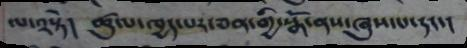ལ༢སྟེ། ཚུལ་ཁྱད་པར་ཅན་གྱི་སྒོ་ནས་ཞུས་པ་དང་།
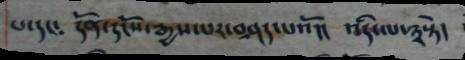པ་དང༴ དོན་དངོས་རྒྱས་པར་བཤད་པའོ།། འདི་ལ་༣སྟེ།
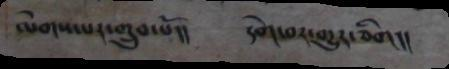ལེགས་པར་གྲུབ་པོ།། དགེ་བར་གྱུར་ཅིག།།
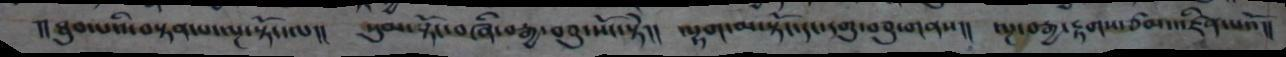།།ཐུབ་པའི་བསྟན་པ་ལྔ་སྟོང་ལ།། སུམ་སྟོང་བཞི་བརྒྱ་བཅུ་སོང་སྟེ།། ལྷག་མ་སྟོང་དང་དགུ་བཅུ་གནས།། ལྔ་བརྒྱ་རྟགས་ཙམ་འཛིན་པའོ།།
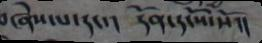བཞེས་པ་དང་། དོན་དངོས་སོ།།
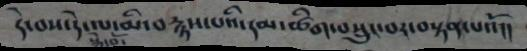དེ་བས་དེ་ལ་མི་བརྙས་པའི་དམ་ཚིག་བསྲུང་བར་བསྟན་པའོ།།
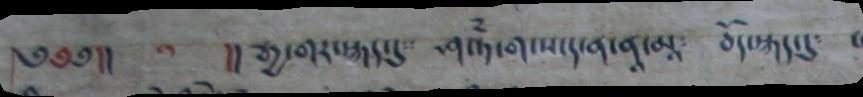༄༅༅།།    །། རྒྱ་གར་སྐད་དུ༴  ཤཉཾ་ག་ས་ད་ན་ནཱ་མཱ༴  བོད་སྐད་དུ༴
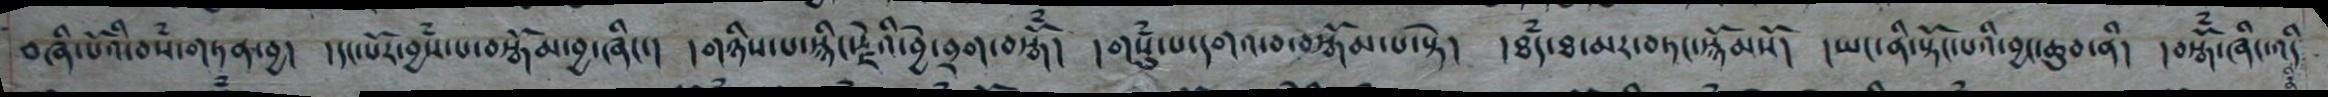བཞི་པོའི་བསཾ་གཏན་བྱ། །དང་པོར་བྱཾས་པ་བསྒོམ་བྱ་ཞིང་། །གཉིས་པ་སྙིང་རྗེའི་བྱེ་བྲག་བསྒོཾ། །གསུཾ་པ་དགའ་བ་བསྒོམ་པ་སྟེ། །ཐཾད་ཐ་མར་བཏང་སྙོམསོ། །ཡང་ནི་སྟོང་པའི་བྱང་ཆུབ་ནི། །བསྒོཾ་ཞིང་འདི
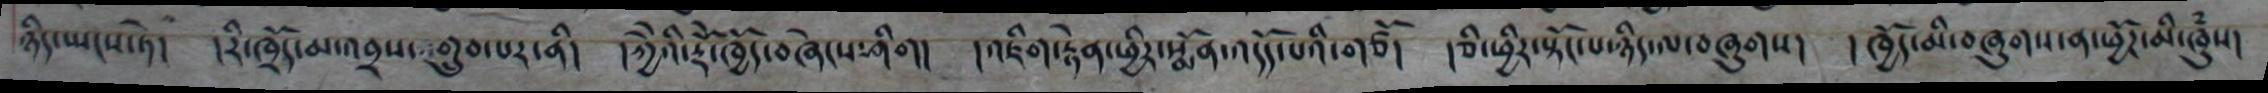ཉིད་ཡངས་ཏེ།  །རི་ཁྲོད་མ་འབྲས་གྲུབ་པར་ནི།  །ཀྱེེའི་རྡོེ་ཁྱོད་བཞེངས་ཤིག།  འཇིག་རྟེན་ཕྱིར་སྨོན་འདོད་པའི་གཙོད  །ཅི་ཕྱིར་སྟོང་པ་ཉིད་ལ་བཞུགས།  །ཁྱོད་མི་བཞུགས་ན་ཕྱོཌ་མི་ཁུཾས།
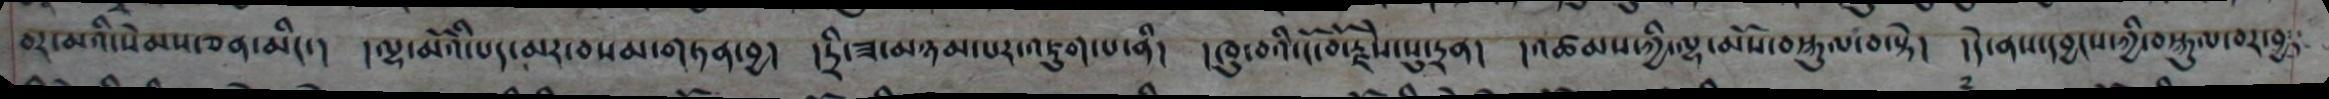བར་མའི་སེམས་ཅན་མིང་།   །ལྷ་མོའི་པད་མར་བསམ་གཏན་བྱ། །དྲི་ཟ་མཉམ་པར་འཇུག་པ་ནི།  ཁུ་བའི་དོ་བོ་རྗེས་སུ་དྲན།  །འཚམས་ཀྱི་ལྷ་མོས་བསྐུལ་བ་སྟེ།  །དེ་ནས་དབྱངས་ཀྱི་བསྐུར་བར་བྱ
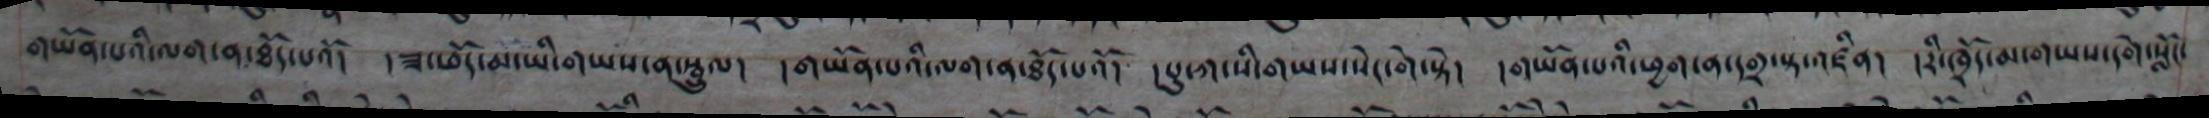གཡོན་པའི་ལག་ན་ཐོད་པའོ། །ཟ་ཕོད་མ་ཡི་གཡས་ན་སྦྲུལ། །གཡོན་པའི་ལག་ན་ཐོད་པའོ། །པུ་ཀ་སི་གཡས་སེང་གེ་སྟེ། །གཡོན་པའི་ཕྱག་ན་དགྲ་སྟ་འཛིན། །རི་ཁྲོད་མ་གཡས་དགེ་སློང་
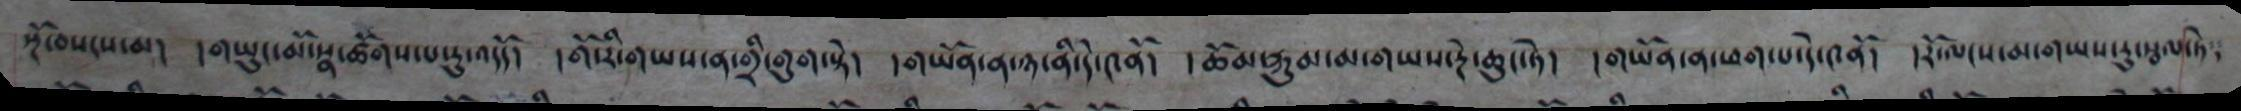སྔོ་བསངས་མ། །གཡུང་མོ་སྣ་ཚོགས་པ་རུ་འདོད། །གོ་རི་གཡས་ན་གྲི་གུག་སྟེ། །གཡོན་ན་ཉ་ནི་དེ་༤ནོ། །ཆོམ་རྐུན་མ་གཡས་རྔེ་ཆུང་ཏེ། །གཡོན་ན་ཕག་པ་དེ་༤ནོ། །རོ་ལངས་མ་གཡས་རུ་སྦལ་ཏེ
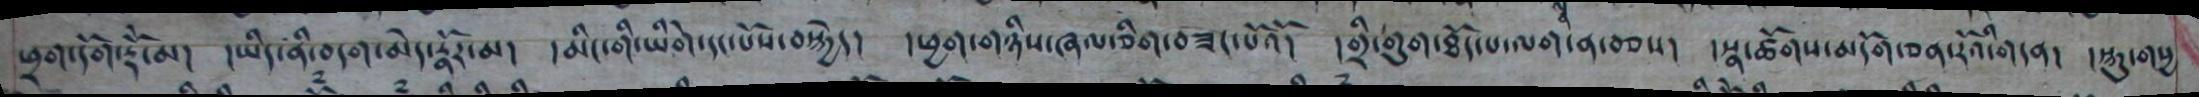ཕྲག་དོག་རྡོེ་མ།   །ཡིད་ནི་བདག་ེད་རྣོར་མ།   །མིང་གི་ཡིགེ་དང་པོས་བསྐྱེད།   །ཕྱག་གཉིས་ཞལ་ཅིག་བཟང་པོའོ།   །གྲི་གུག་ཐོད་པ་ལག་ན་བཅས།  །སྣ་ཚོགས་མདོག་ཅན་རོའི་གདན།  །སྐུ་གསྱ
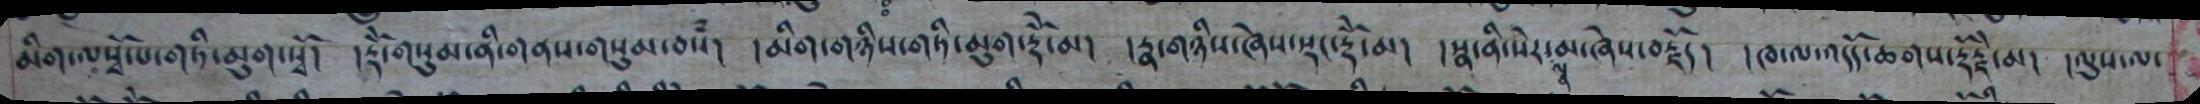མིག་ལསྭོ་པ་གཏི་མུག་སྭོ།  །རྡོེ་གསུམ་ནི་གནས་གསུམ་བསཾ།  །མིག་གཉིས་གཏི་མུག་རྡོེ་མ།   །རྣ་གཉིས་ཞེས་སྡང་རྡོེ་མ།   །སྣ་ནི་སེར་སྣ་མ་ཞེས་བརྗོད།  །ཁ་ལ་འདོད་ཆགས་རྡོརྗེ་མ།  །ལུས་ལ་
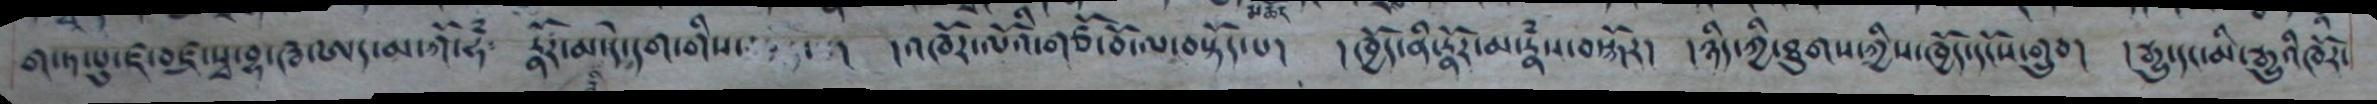ག་ཏ་པུ་ཛ་བཛ་སྭ་བྷ་ཝ་ཨད་མ་ཀོ་ཧཾ   རྣོར་མ་དེ་དག་གིས་    །འཁོར་ལོའི་གཙོ་བོ་ལ་བསྟོད་པ།  །ཁྱོད་ནི་རྣོར་མ་རྣཾས་བསྐོར།  །ཉིད་ཀྱི་ཐུགས་ཀྱིས་ཁྱོད་དངོས་གྲུབ།   །རྒྱུ་དང་མི་རྒྱུའིཁོར་
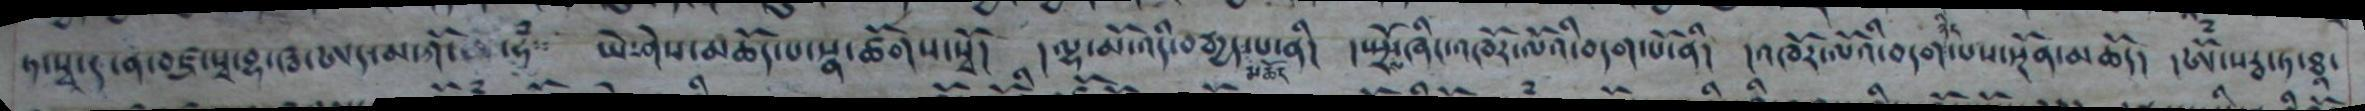ཏ་སྭ་ན་བཛ་བྷ་ཝ་ཨད་མ་གོ་ཧཾ    ཡེ་ཤེས་མཆོད་པ་སྣ་ཚོགས་སྭོ།   །ལྷ་མོ་འདི་བརྒྱད་མཆོད་པ་ནི།  །སྤྲོས་ཞིང་འཁོར་ལོའི་བདག་པོ་ནི།  །འཁོར་ལོའི་བདག་ཉིད་པས་སྔོན་མཆོད།  །ཨོཾ་སརྭ་ཏ་ཐཱ་
